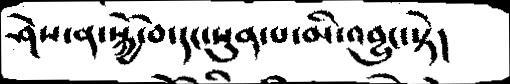ཤེས་ན་སྐྱོ་བ་དང་སུན་པ་མི་འབྱུང་སྟེ།
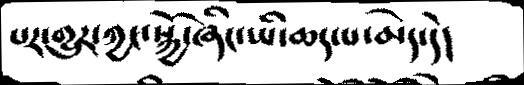པར་གྱུར་ཀྱང་སྐྱོ་ཞིང་ཡི་ཆད་པ་མེད་དེ།
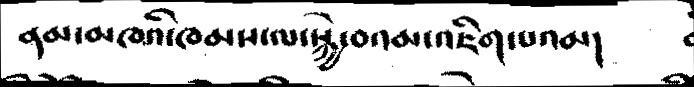ནམ་མཁའི་ཁམས་ལ་སྐྱེ་བའམ་འཇིག་པའམ།
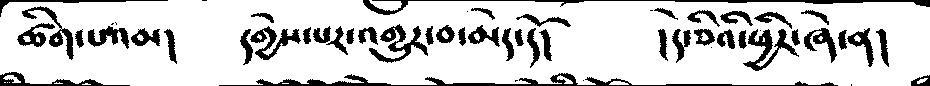ཚིག་པའམ།   དགྱེས་པར་འགྱུར་བ་མེད་དོ།    །དེ་ཅིའི་ཕྱིར་ཞེ་ན།
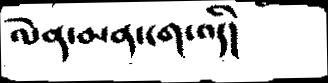ལེན་མན་ངག་འདི།
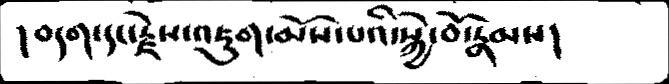།བདག་དང་རྗེས་འཇུག་མོས་པའི་སྐྱེ་བོ་རྣམས།
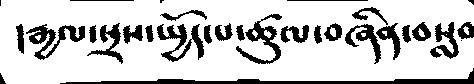།རྒྱལ་སྲས་སྤྱོད་པ་ཚུལ་བཞིན་བསླབ
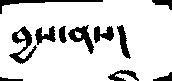བྱས་ནས།
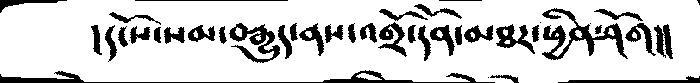།དངོས་སམ་བརྒྱུད་ནས་འགྲོ་དོན་མཐར་ཕྱིན་ཤོག།།
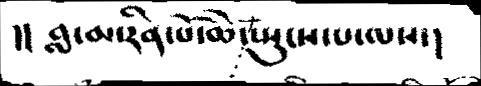།།བླ་མ་རིན་པོ་ཆེ་སྤུངས་པ་ལས་།
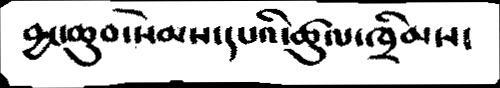བྱང་ཆུབ་སེམས་དཔའི་ཚུལ་ཁྲིམས་
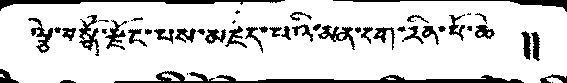ལྕེ་བསྒོཾ་རྫོང་པས་མཛད་པའི་མན་ངག་རིན་པོ་ཆེ །།
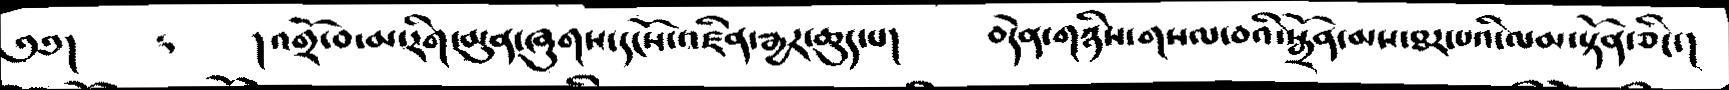༄༅།   ༴  །འགྲོ་བ་མ་རིག་མུན་ཞུགས་དངོས་འཛིན་རྒྱར་ཆུད་པ།   བདེན་གཉིས་གསལ་བའི་སྒྲོན་མས་ཐར་པའི་ལམ་སྟོན་ཅིང་།
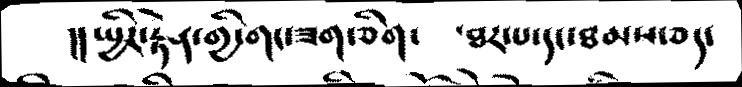།།སྤྱིར་རྟེན་གྱི་གང་ཟག་ཅིག་  ་ཐར་པ་དང་ཐམས་ཅད་
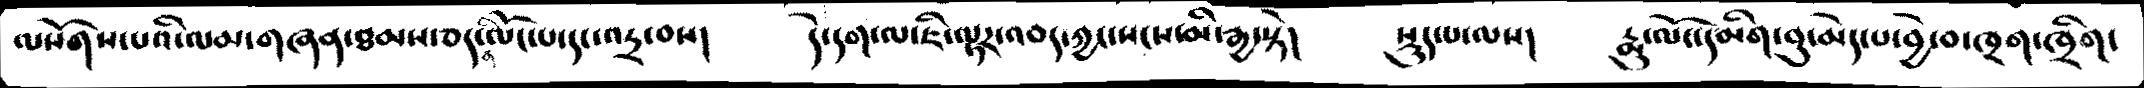ལསོགས་པའི་ལམ་གཞན་ཐམས་ཅད་ནི་ལོང་པ་དང་འདྲ་བས།   དེ་དག་ལ་ཇི་ལྟར་འབད་ཀྱང་སངས་མི་རྒྱ་སྟེ།   སྡུད་པ་ལས།   རྨུ་ལོང་དམིག་བུ་མེད་པ་བྱེ་བ་ཁྲག་ཁྲིག་
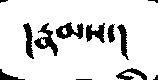།རྣམས་།
